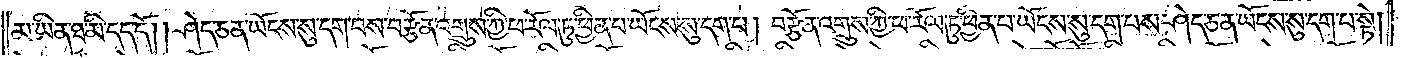མ་ཡིན་ཐ་མི་དད་དོ། །ཤེད་ཅན་ཡོངས་སུ་དག་པས་བརྩོན་འགྲུས་ཀྱི་ཕ་རོལ་ཏུ་ཕྱིན་པ་ཡོངས་སུ་དག་པ། བརྩོན་འགྲུས་ཀྱི་ཕ་རོལ་ཏུ་ཕྱིན་པ་ཡོངས་སུ་དག་པས་ཤེད་ཅན་ཡོངས་སུ་དག་པ་སྟེ།
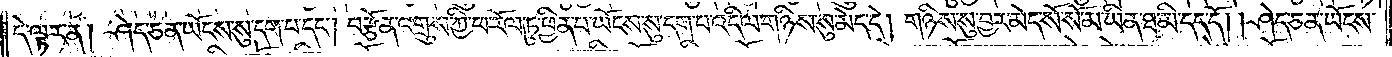དེ་ལྟར་ན། ཤེད་ཅན་ཡོངས་སུ་དག་པ་དང༌། བརྩོན་འགྲུས་ཀྱི་ཕ་རོལ་ཏུ་ཕྱིན་པ་ཡོངས་སུ་དག་པ་འདི་ལ་གཉིས་སུ་མེད་དེ། གཉིས་སུ་བྱར་མེད་སོ་སོ་མ་ཡིན་ཐ་མི་དད་དོ། །ཤེད་ཅན་ཡོངས་
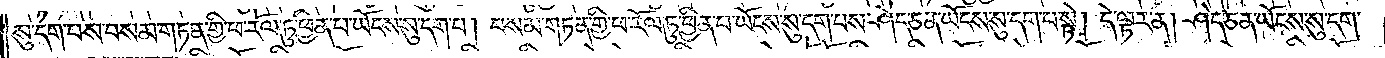སུ་དག་པས་བསམ་གཏན་གྱི་ཕ་རོལ་ཏུ་ཕྱིན་པ་ཡོངས་སུ་དག་པ། བསམ་གཏན་གྱི་ཕ་རོལ་ཏུ་ཕྱིན་པ་ཡོངས་སུ་དག་པས་ཤེད་ཅན་ཡོངས་སུ་དག་པ་སྟེ། དེ་ལྟར་ན། ཤེད་ཅན་ཡོངས་སུ་དག་
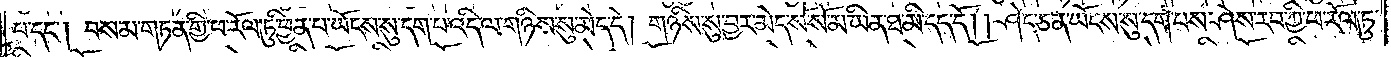པ་དང༌། བསམ་གཏན་གྱི་ཕ་རོལ་ཏུ་ཕྱིན་པ་ཡོངས་སུ་དག་པ་འདི་ལ་གཉིས་སུ་མེད་དེ། གཉིས་སུ་བྱར་མེད་སོ་སོ་མ་ཡིན་ཐ་མི་དད་དོ། །ཤེད་ཅན་ཡོངས་སུ་དག་པས་ཤེས་རབ་ཀྱི་ཕ་རོལ་ཏུ་
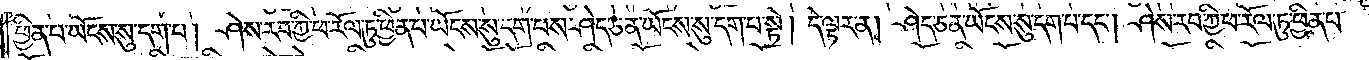ཕྱིན་པ་ཡོངས་སུ་དག་པ། ཤེས་རབ་ཀྱི་ཕ་རོལ་ཏུ་ཕྱིན་པ་ཡོངས་སུ་དག་པས་ཤེད་ཅན་ཡོངས་སུ་དག་པ་སྟེ། དེ་ལྟར་ན། ཤེད་ཅན་ཡོངས་སུ་དག་པ་དང༌། ཤེས་རབ་ཀྱི་ཕ་རོལ་ཏུ་ཕྱིན་པ་
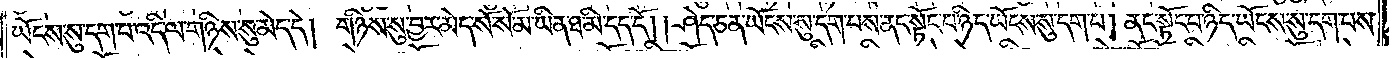ཡོངས་སུ་དག་པ་འདི་ལ་གཉིས་སུ་མེད་དེ། གཉིས་སུ་བྱར་མེད་སོ་སོ་མ་ཡིན་ཐ་མི་དད་དོ། །ཤེད་ཅན་ཡོངས་སུ་དག་པས་ནང་སྟོང་པ་ཉིད་ཡོངས་སུ་དག་པ། ནང་སྟོང་པ་ཉིད་ཡོངས་སུ་དག་པས་
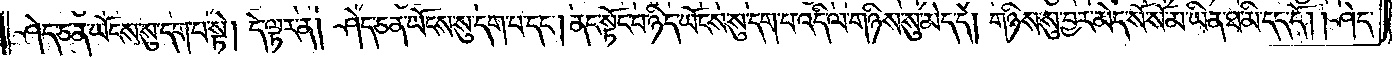ཤེད་ཅན་ཡོངས་སུ་དག་པ་སྟེ། དེ་ལྟར་ན། ཤེད་ཅན་ཡོངས་སུ་དག་པ་དང༌། ནང་སྟོང་པ་ཉིད་ཡོངས་སུ་དག་པ་འདི་ལ་གཉིས་སུ་མེད་དེ། གཉིས་སུ་བྱར་མེད་སོ་སོ་མ་ཡིན་ཐ་མི་དད་དོ། །ཤེད་
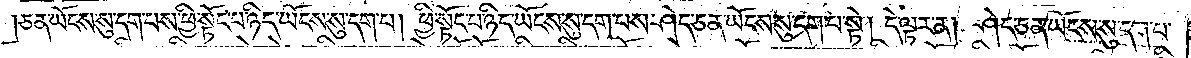ཅན་ཡོངས་སུ་དག་པས་ཕྱི་སྟོང་པ་ཉིད་ཡོངས་སུ་དག་པ། ཕྱི་སྟོང་པ་ཉིད་ཡོངས་སུ་དག་པས་ཤེད་ཅན་ཡོངས་སུ་དག་པ་སྟེ། དེ་ལྟར་ན། ཤེད་ཅན་ཡོངས་སུ་དག་པ་
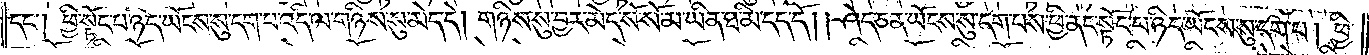དང༌། ཕྱི་སྟོང་པ་ཉིད་ཡོངས་སུ་དག་པ་འདི་ལ་གཉིས་སུ་མེད་དེ། གཉིས་སུ་བྱར་མེད་སོ་སོ་མ་ཡིན་ཐ་མི་དད་དོ། །ཤེད་ཅན་ཡོངས་སུ་དག་པས་ཕྱི་ནང་སྟོང་པ་ཉིད་ཡོངས་སུ་དག་པ། ཕྱི་
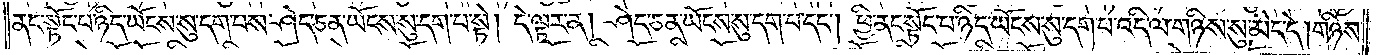ནང་སྟོང་པ་ཉིད་ཡོངས་སུ་དག་པས་ཤེད་ཅན་ཡོངས་སུ་དག་པ་སྟེ། དེ་ལྟར་ན། ཤེད་ཅན་ཡོངས་སུ་དག་པ་དང༌། ཕྱི་ནང་སྟོང་པ་ཉིད་ཡོངས་སུ་དག་པ་འདི་ལ་གཉིས་སུ་མེད་དེ། གཉིས་
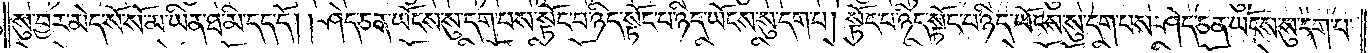སུ་བྱར་མེད་སོ་སོ་མ་ཡིན་ཐ་མི་དད་དོ། །ཤེད་ཅན་ཡོངས་སུ་དག་པས་སྟོང་པ་ཉིད་དུ་སྟོང་པ་ཉིད་ཡོངས་སུ་དག་པ། སྟོང་པ་ཉིད་སྟོང་པ་ཉིད་ཡོངས་སུ་དག་པས་ཤེད་ཅན་ཡོངས་སུ་དག་པ་
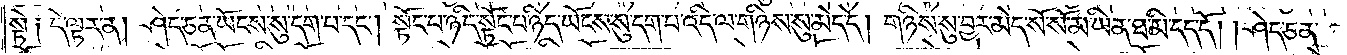སྟེ༑ དེ་ལྟར་ན། ཤེད་ཅན་ཡོངས་སུ་དག་པ་དང༌། སྟོང་པ་ཉིད་སྟོང་པ་ཉིད་ཡོངས་སུ་དག་པ་འདི་ལ་གཉིས་སུ་མེད་དེ། གཉིས་སུ་བྱར་མེད་སོ་སོ་མ་ཡིན་ཐ་མི་དད་དོ། །ཤེད་ཅན་
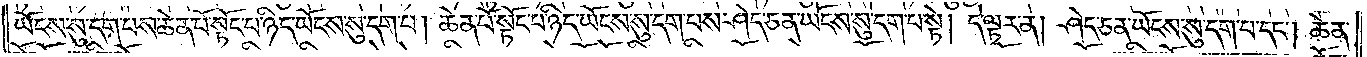ཡོངས་སུ་དག་པས་ཆེན་པོ་སྟོང་པ་ཉིད་ཡོངས་སུ་དག་པ། ཆེན་པོ་སྟོང་པ་ཉིད་ཡོངས་སུ་དག་པས་ཤེད་ཅན་ཡོངས་སུ་དག་པ་སྟེ། དེ་ལྟར་ན། ཤེད་ཅན་ཡོངས་སུ་དག་པ་དང༌། ཆེན་
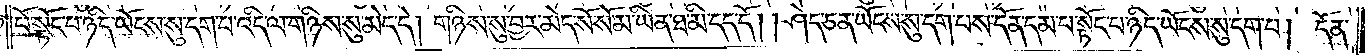པོ་སྟོང་པ་ཉིད་ཡོངས་སུ་དག་པ་འདི་ལ་གཉིས་སུ་མེད་དེ། གཉིས་སུ་བྱར་མེད་སོ་སོ་མ་ཡིན་ཐ་མི་དད་དོ། །ཤེད་ཅན་ཡོངས་སུ་དག་པས་དོན་དམ་པ་སྟོང་པ་ཉིད་ཡོངས་སུ་དག་པ། དོན་
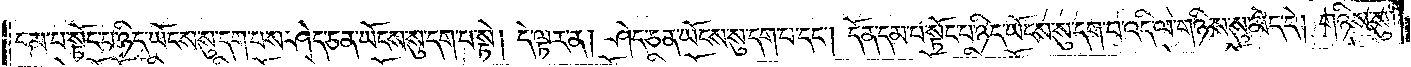དམ་པ་སྟོང་པ་ཉིད་ཡོངས་སུ་དག་པས་ཤེད་ཅན་ཡོངས་སུ་དག་པ་སྟེ། དེ་ལྟར་ན། ཤེད་ཅན་ཡོངས་སུ་དག་པ་དང༌། དོན་དམ་པ་སྟོང་པ་ཉིད་ཡོངས་སུ་དག་པ་འདི་ལ་གཉིས་སུ་མེད་དེ། གཉིས་སུ་
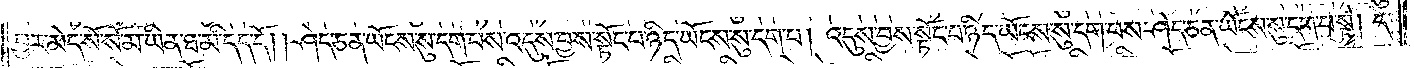བྱར་མེད་སོ་སོ་མ་ཡིན་ཐ་མི་དད་དོ། །ཤེད་ཅན་ཡོངས་སུ་དག་པས་འདུས་བྱས་སྟོང་པ་ཉིད་ཡོངས་སུ་དག་པ། འདུས་བྱས་སྟོང་པ་ཉིད་ཡོངས་སུ་དག་པས་ཤེད་ཅན་ཡོངས་སུ་དག་པ་སྟེ། དེ་
